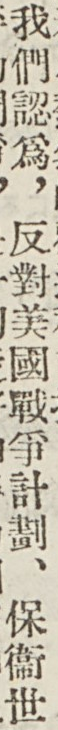我們認爲，反對美國戰爭計劃、保衛世
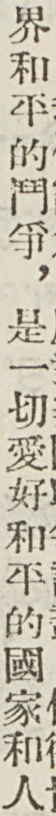界和平的鬥爭，是一切愛好和平的國家和人
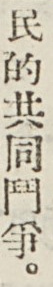民的共同鬥爭。
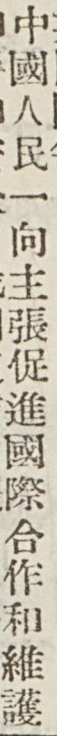維護中國人民一向主張促進國際合作和
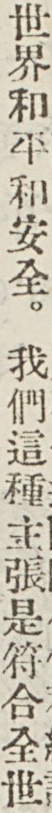世界和平和安全。我們這種主張是符合全世
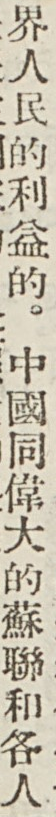界人民的利益的。中國同偉大的蘇聯和各人
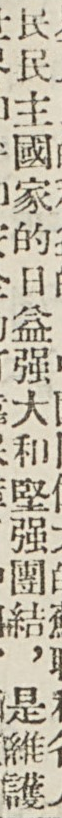民民主國家的日益強大和堅強團結，是維護
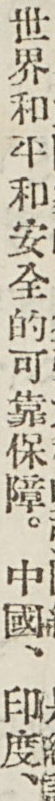世界和平和安全的可靠保障。中國、印度、
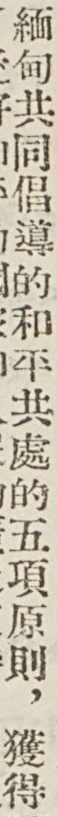緬甸共同倡導的和平共處的五項原則，獲得
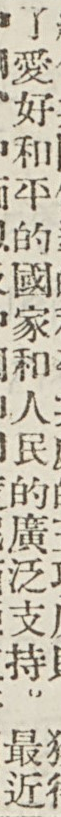了愛好和平的國家和人民的廣泛支持。最近
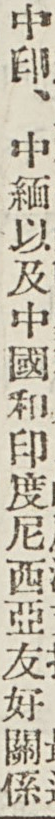中印、中緬以及中國和印度尼西亞友好關係
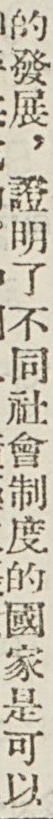的發展，證明了不同社會制度的國家是可以
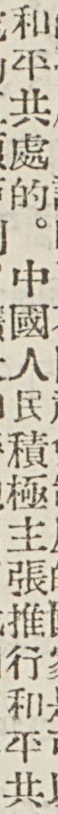和平共處的。中國人民積極主張推行和平共
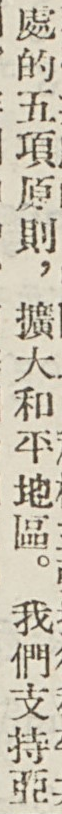處的五項原則，擴大和平地區。我們支持亞
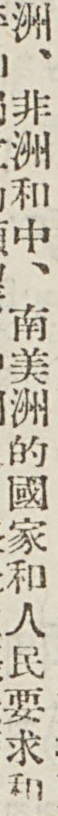洲、非洲和中、南美洲的國家和人民要求和
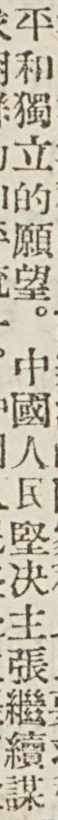平和獨立的願望。中國人民堅決主張繼續謀
